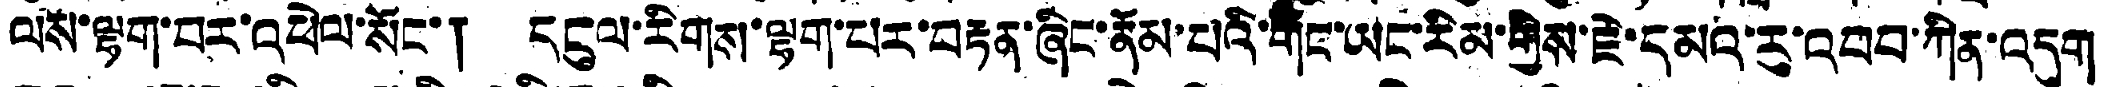ལས་ལྷག་པར་འཕེལ་སོང་། དངུལ་རིགས་ལྷག་པར་བརྟན་ཞིང་ནོམ་པའི་གང་ཡང་རིམ་གྱིས་ཇེ་དམའ་རུ་འབབ་ཀིན་འདུག
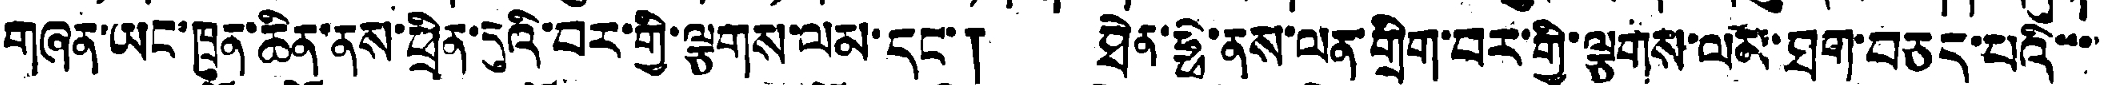གཞན་ཡང་ཁྲུན་ཆིན་ནས་ཕྲིན་དུའི་བར་གྱི་ལྕགས་ལམ་དང་། ཐེན་ཧྥེ་ནས་ལན་གྲིག་བར་གྱི་ལྕགས་ལམ་ཐག་བཅད་པའི་་་
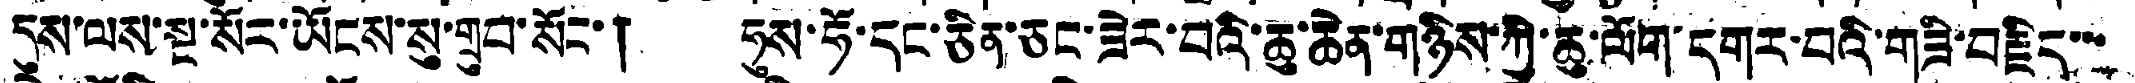དུས་ལས་སྔ་སོར་ཡོངས་སུ་གྲུབ་སོང་། ཧུས་ཧོ་དང་ཅིན་ཅང་ཟེར་བའི་ཆུ་ཆེན་གཉིས་ཀྱི་ཆུ་ལོག་དགར་བའི་གཟི་བརྗིད་་་
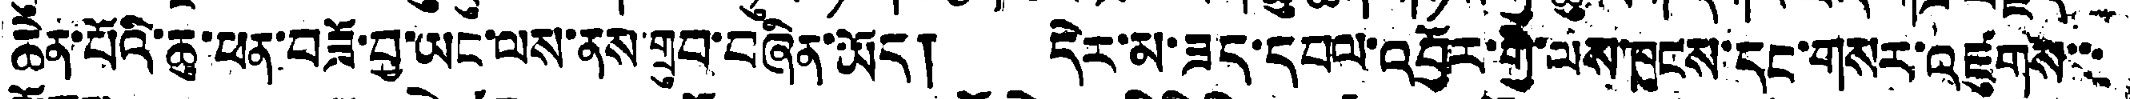ཆེན་པོའི་ཆུ་ཕན་བཟོ་བྱ་ཡང་ལས་ནས་གྲུབ་བཞིན་ཡོད། དེར་མ་ཟད་དཔལ་འབྱོར་གྱི་ལས་ཁུངས་དང་གསར་འཛུགས་་་
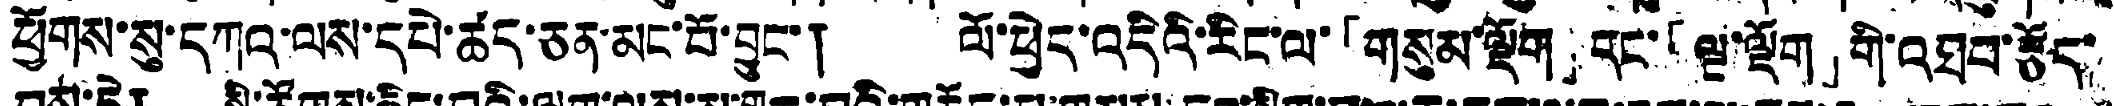ཕྱོགས་སུ་དཀའ་ལས་དཔེ་ཚད་ཅན་མང་པོ་བྱུང་། ལོ་ཕྱེད་འདིའི་རིང་ལ་「གསུམ་ལྡོག」དང་「ལྔ་ལྡོག」གི་འཐབ་རྩོད་
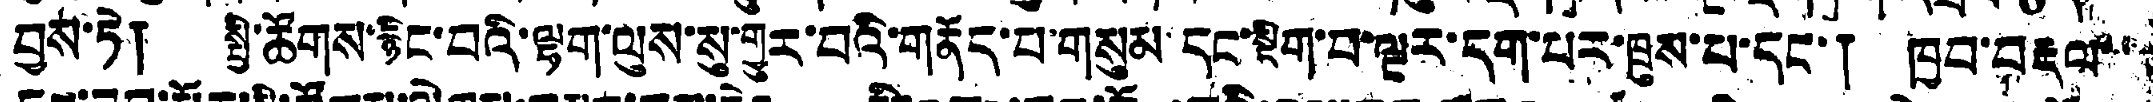བྱས་ཏེ། སྤྱི་ཚོགས་རྙིང་བའི་ལྷག་ལུས་སུ་གྱུར་བའི་གནོད་པ་གསུམ་དང་སྡིག་བ་ལྔར་དག་པར་ཁྲུས་པ་དང་། ཁྱབ་བརྡལ་་
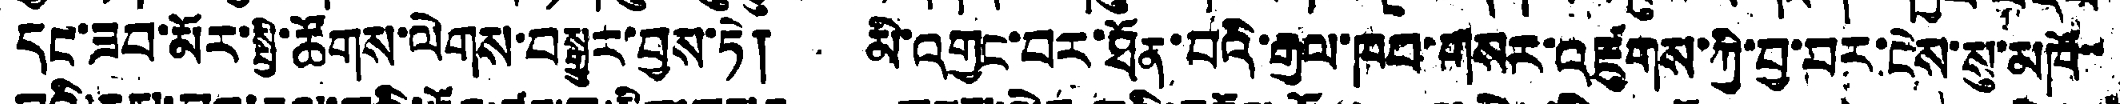དང་ཟབ་མོར་སྤྱི་ཚོགས་ལེགས་བསྒྱུར་བྱས་ཏེ། མི་འགྱང་བར་ཐོན་པའི་རྒྱལ་ཁབ་གསར་འཛུགས་ཀྱི་བྱ་བར་ངེས་སུ་མཁོ་་
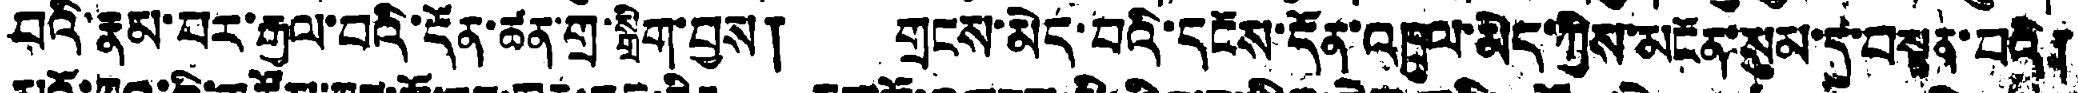བའི་རྣམ་པར་རྒྱལ་བའི་དོན་ཚན་གྲ་སྒྲིག་བྱས། གྲངས་མེད་པའི་དངོས་དོན་འཁུལ་མེད་ཀྱིས་མངོན་སུམ་དུ་བསྟན་པའི་
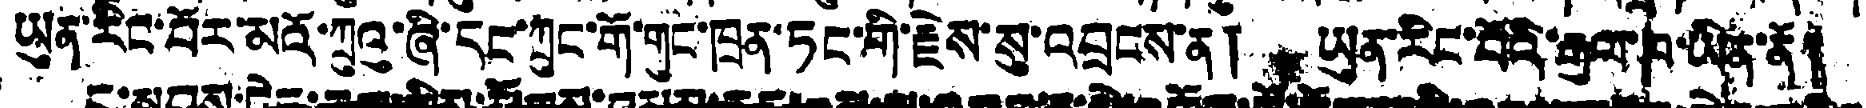ཡུན་རིང་བོར་མའོ་ཀྲུའུ་ཞི་དང་ཀྲུང་གོ་གུང་ཁྲན་ཏང་གི་རྗེས་སུ་འབྲངས་ན། ཡུན་རིང་པོའི་རྒྱལ་ཁ་ཡིན་ནོ།
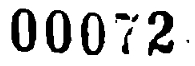00072
